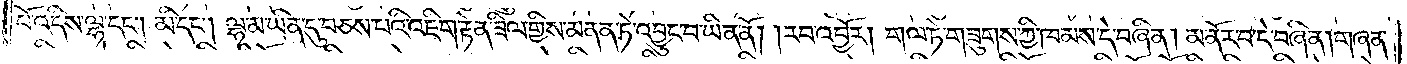པོ་འདིས་ལྷ་དང༌། མི་དང༌། ལྷ་མ་ཡིན་དུ་བཅས་པའི་འཇིག་རྟེན་ཟིལ་གྱིས་མནན་ཏེ་འབྱུང་བ་ཡིན་ནོ། །རབ་འབྱོར། གལ་ཏེ་གཟུགས་ཀྱི་ཁམས་དེ་བཞིན། མ་ནོར་བ་དེ་བཞིན། གཞན་
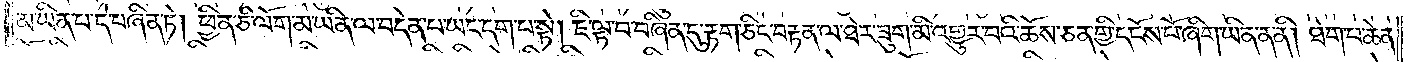མ་ཡིན་པ་དེ་བཞིན་ཏེ། ཕྱིན་ཅི་ལོག་མ་ཡིན་ལ་བདེན་པ་ཡང་དག་པ་སྟེ། ཇི་ལྟ་བ་བཞིན་དུ་རྟག་ཅིང་བརྟན་ལ་ཐེར་ཟུག་མི་འགྱུར་བའི་ཆོས་ཅན་གྱི་དངོས་པོ་ཞིག་ཡིན་ན་ནི། ཐེག་པ་ཆེན་
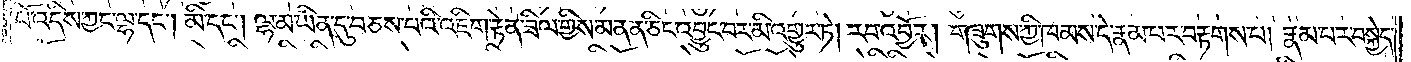པོ་འདིས་ཀྱང་ལྷ་དང༌། མི་དང༌། ལྷ་མ་ཡིན་དུ་བཅས་པའི་འཇིག་རྟེན་ཟིལ་གྱིས་མནན་ཅིང་འབྱུང་བར་མི་འགྱུར་ཏེ། རབ་འབྱོར། གཟུགས་ཀྱི་ཁམས་དེ་རྣམ་པར་བརྟགས་པ། རྣམ་པར་བསྐྱེད་
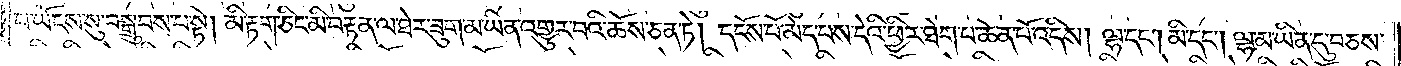པ་ཡོངས་སུ་བསྒྲུབས་པ་སྟེ། མི་རྟག་ཅིང་མི་བརྟན་ལ་ཐེར་ཟུག་མ་ཡིན་འགྱུར་བའི་ཆོས་ཅན་ཏེ། དངོས་པོ་མེད་པས་དེའི་ཕྱིར་ཐེག་པ་ཆེན་པོ་འདིས། ལྷ་དང༌། མི་དང༌། ལྷ་མ་ཡིན་དུ་བཅས་
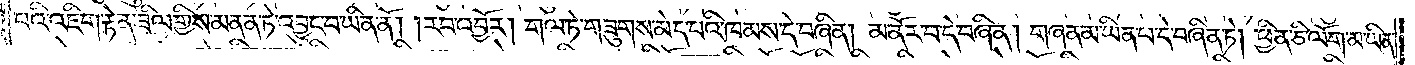པའི་འཇིག་རྟེན་ཟིལ་གྱིས་མནན་ཏེ་འབྱུང་བ་ཡིན་ནོ། །རབ་འབྱོར། གལ་ཏེ་གཟུགས་མེད་པའི་ཁམས་དེ་བཞིན། མ་ནོར་བ་དེ་བཞིན། གཞན་མ་ཡིན་པ་དེ་བཞིན་ཏེ། ཕྱིན་ཅི་ལོག་མ་ཡིན་
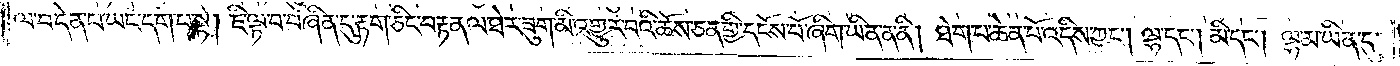ལ་བདེན་པ་ཡང་དག་པ་སྟེ། ཇི་ལྟ་བ་བཞིན་དུ་རྟག་ཅིང་བརྟན་ལ་ཐེར་ཟུག་མི་འགྱུར་བའི་ཆོས་ཅན་གྱི་དངོས་པོ་ཞིག་ཡིན་ན་ནི། ཐེག་པ་ཆེན་པོ་འདིས་ཀྱང༌། ལྷ་དང༌། མི་དང༌། ལྷ་མ་ཡིན་དུ་
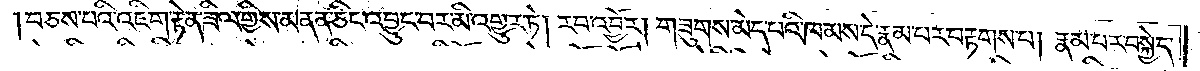བཅས་པའི་འཇིག་རྟེན་ཟིལ་གྱིས་མནན་ཅིང་འབྱུང་བར་མི་འགྱུར་ཏེ། རབ་འབྱོར། གཟུགས་མེད་པའི་ཁམས་དེ་རྣམ་པར་བརྟགས་པ། རྣམ་པར་བསྐྱེད་
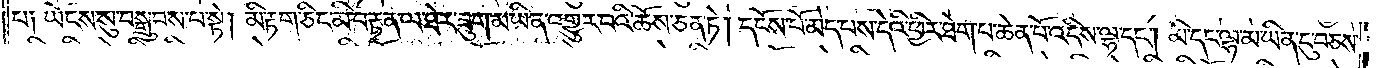པ། ཡོངས་སུ་བསྒྲུབས་པ་སྟེ། མི་རྟག་ཅིང་མི་བརྟན་ལ་ཐེར་ཟུག་མ་ཡིན་འགྱུར་བའི་ཆོས་ཅན་ཏེ། དངོས་པོ་མེད་པས་དེའི་ཕྱིར་ཐེག་པ་ཆེན་པོ་འདིས་ལྷ་དང༌། མི་དང་ལྷ་མ་ཡིན་དུ་བཅས་
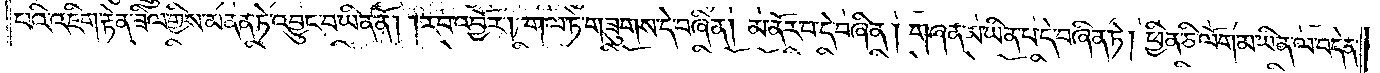པའི་འཇིག་རྟེན་ཟིལ་གྱིས་མནན་ཏེ་འབྱུང་བ་ཡིན་ནོ། །རབ་འབྱོར། གལ་ཏེ་གཟུགས་དེ་བཞིན། མ་ནོར་བ་དེ་བཞིན། གཞན་མ་ཡིན་པ་དེ་བཞིན་ཏེ། ཕྱིན་ཅི་ལོག་མ་ཡིན་ལ་བདེན་
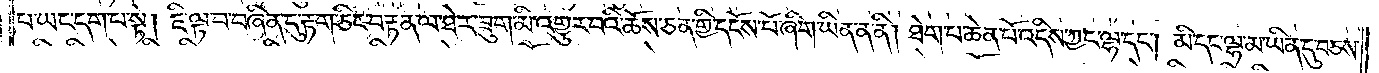པ་ཡང་དག་པ་སྟེ། ཇི་ལྟ་བ་བཞིན་དུ་རྟག་ཅིང་བརྟན་ལ་ཐེར་ཟུག་མི་འགྱུར་བའི་ཆོས་ཅན་གྱི་དངོས་པོ་ཞིག་ཡིན་ན་ནི། ཐེག་པ་ཆེན་པོ་འདིས་ཀྱང་ལྷ་དང༌། མི་དང་ལྷ་མ་ཡིན་དུ་བཅས་
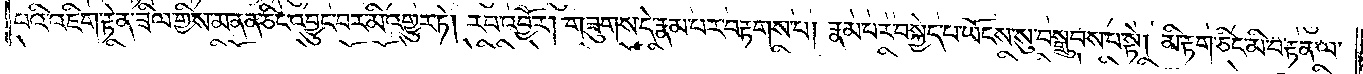པའི་འཇིག་རྟེན་ཟིལ་གྱིས་མནན་ཅིང་འབྱུང་བར་མི་འགྱུར་ཏེ། རབ་འབྱོར། གཟུགས་དེ་རྣམ་པར་བརྟགས་པ། རྣམ་པར་བསྐྱེད་པ་ཡོངས་སུ་བསྒྲུབས་པ་སྟེ། མི་རྟག་ཅིང་མི་བརྟན་ལ་
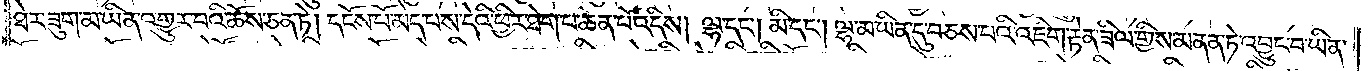ཐེར་ཟུག་མ་ཡིན་འགྱུར་བའི་ཆོས་ཅན་ཏེ། དངོས་པོ་མེད་པས་དེའི་ཕྱིར་ཐེག་པ་ཆེན་པོ་འདིས། ལྷ་དང༌། མི་དང༌། ལྷ་མ་ཡིན་དུ་བཅས་པའི་འཇིག་རྟེན་ཟིལ་གྱིས་མནན་ཏེ་འབྱུང་བ་ཡིན་
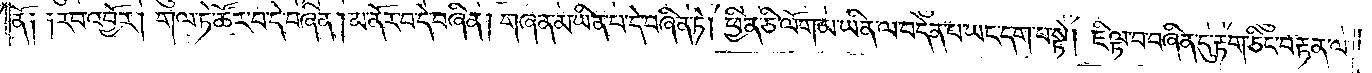ནོ༑ ༑རབ་འབྱོར། གལ་ཏེ་ཚོར་བ་དེ་བཞིན། མ་ནོར་བ་དེ་བཞིན། གཞན་མ་ཡིན་པ་དེ་བཞིན་ཏེ། ཕྱིན་ཅི་ལོག་མ་ཡིན་ལ་བདེན་པ་ཡང་དག་པ་སྟེ། ཇི་ལྟ་བ་བཞིན་དུ་རྟག་ཅིང་བརྟན་ལ་
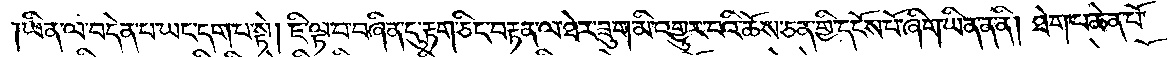ཡིན་ལ་བདེན་པ་ཡང་དག་པ་སྟེ། ཇི་ལྟ་བ་བཞིན་དུ་རྟག་ཅིང་བརྟན་ལ་ཐེར་ཟུག་མི་འགྱུར་བའི་ཆོས་ཅན་གྱི་དངོས་པོ་ཞིག་ཡིན་ན་ནི། ཐེག་པ་ཆེན་པོ་
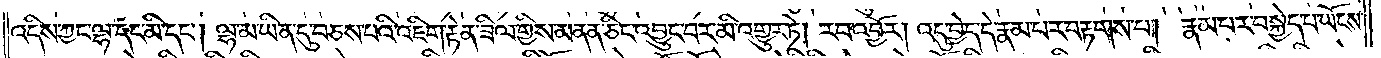འདིས་ཀྱང་ལྷ་དང་མི་དང༌། ལྷ་མ་ཡིན་དུ་བཅས་པའི་འཇིག་རྟེན་ཟིལ་གྱིས་མནན་ཅིང་འབྱུང་བར་མི་འགྱུར་ཏེ། རབ་འབྱོར། འདུ་བྱེད་དེ་རྣམ་པར་བརྟགས་པ། རྣམ་པར་བསྐྱེད་པ་ཡོངས་
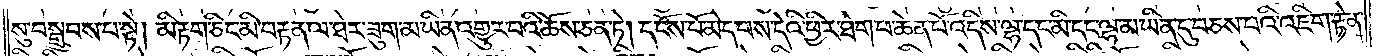སུ་བསྒྲུབས་པ་སྟེ། མི་རྟག་ཅིང་མི་བརྟན་ལ་ཐེར་ཟུག་མ་ཡིན་འགྱུར་བའི་ཆོས་ཅན་ཏེ། དངོས་པོ་མེད་པས་དེའི་ཕྱིར་ཐེག་པ་ཆེན་པོ་འདིས་ལྷ་དང་མི་དང་ལྷ་མ་ཡིན་དུ་བཅས་པའི་འཇིག་རྟེན་
